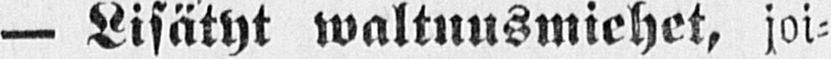— Lisätyt waltuusmiehet, joi-
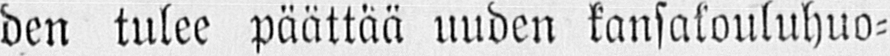den tulee päättää uuden kansakouluhuo-
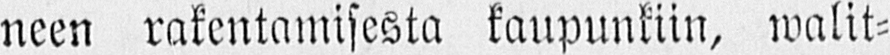neen rakentamisesta kaupunkiin, walit-
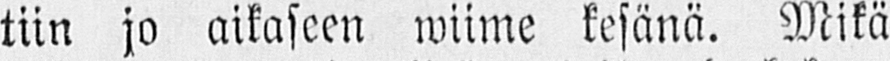tiin jo aikaseen wiime kesänä. Mikä
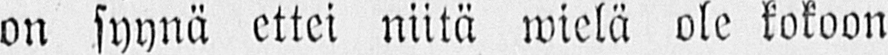on syynä ettei niitä wielä ole kokoon
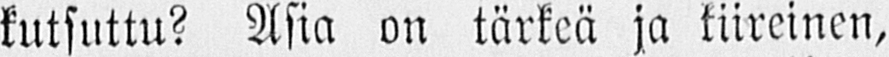kutsuttu? Asia on tärkeä ja kiireinen,
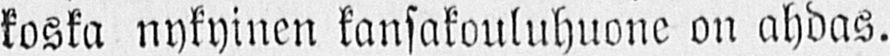koska nykyinen kansakouluhuone on ahdas.
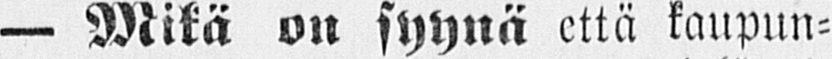— Mikä on syynä että kaupun-
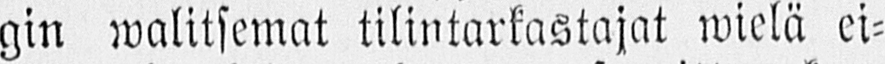gin walitsemat tilintarkastajat wielä ei-
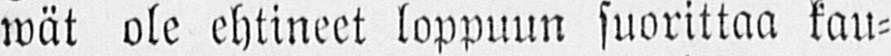wät ole ehtineet loppuun suorittaa kau-
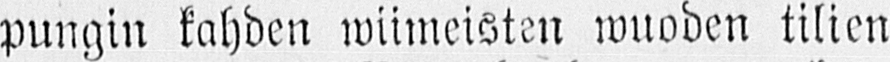pungin kahden wiimeisten wuoden tilien
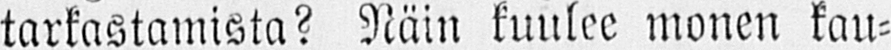tarkastamista? Näin kuulee monen kau-
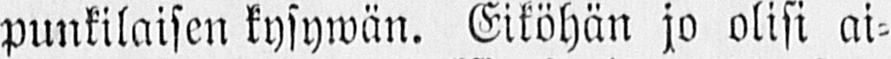punkilaisen kysywän. Eiköhän jo olisi ai-
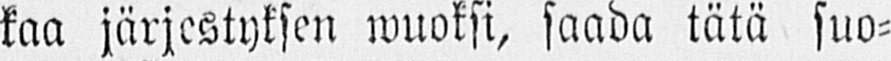kaa järjestyksen wuoksi, saada tätä suo-
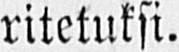ritetuksi.
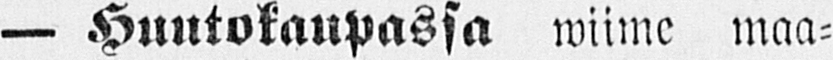— Huutokaupassa wiime maa-
